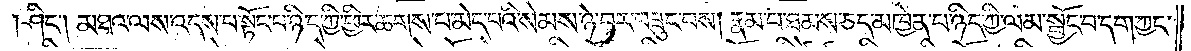ཤིང༌། མཐའ་ལས་འདས་པ་སྟོང་པ་ཉིད་ཀྱི་ཕྱིར་ཆགས་པ་མེད་པའི་སེམས་ཉེ་བར་བཟུང་བས། རྣམ་པ་ཐམས་ཅད་མཁྱེན་པ་ཉིད་ཀྱི་ལམ་སྦྱོང་བ་དག་ཀྱང་
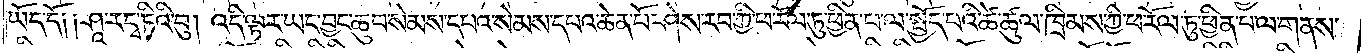ཡོད་དོ༑ ༑ཤཱ་ར་དྭ་ཏིའི་བུ། འདི་ལྟར་ཡང་བྱང་ཆུབ་སེམས་དཔའ་སེམས་དཔའ་ཆེན་པོ་ཤེས་རབ་ཀྱི་ཕ་རོལ་ཏུ་ཕྱིན་པ་ལ་སྤྱོད་པའི་ཚེ་ཚུལ་ཁྲིམས་ཀྱི་ཕ་རོལ་ཏུ་ཕྱིན་པ་ལ་གནས་
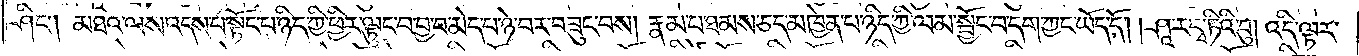ཤིང༌། མཐའ་ལས་འདས་པ་སྟོང་པ་ཉིད་ཀྱི་ཕྱིར་ལྟུང་བ་བྱ་བ་མེད་པ་ཉེ་བར་བཟུང་བས། རྣམ་པ་ཐམས་ཅད་མཁྱེན་པ་ཉིད་ཀྱི་ལམ་སྦྱོང་བ་དག་ཀྱང་ཡོད་དོ། །ཤཱ་ར་དྭ་ཏིའི་བུ། འདི་ལྟར་
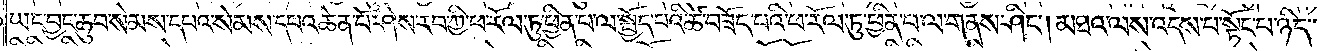ཡང་བྱང་ཆུབ་སེམས་དཔའ་སེམས་དཔའ་ཆེན་པོ་ཤེས་རབ་ཀྱི་ཕ་རོལ་ཏུ་ཕྱིན་པ་ལ་སྤྱོད་པའི་ཚེ་བཟོད་པའི་ཕ་རོལ་ཏུ་ཕྱིན་པ་ལ་གནས་ཤིང༌། མཐའ་ལས་འདས་པ་སྟོང་པ་ཉིད་
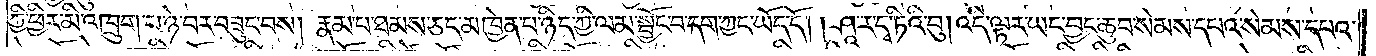ཀྱི་ཕྱིར་མི་འཁྲུག་པ་ཉེ་བར་བཟུང་བས། རྣམ་པ་ཐམས་ཅད་མཁྱེན་པ་ཉིད་ཀྱི་ལམ་སྦྱོང་བ་དག་ཀྱང་ཡོད་དོ། །ཤཱ་ར་དྭ་ཏིའི་བུ། འདི་ལྟར་ཡང་བྱང་ཆུབ་སེམས་དཔའ་སེམས་དཔའ་
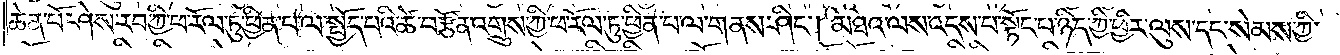ཆེན་པོ་ཤེས་རབ་ཀྱི་ཕ་རོལ་ཏུ་ཕྱིན་པ་ལ་སྤྱོད་པའི་ཚེ་བརྩོན་འགྲུས་ཀྱི་ཕ་རོལ་ཏུ་ཕྱིན་པ་ལ་གནས་ཤིང༌། མཐའ་ལས་འདས་པ་སྟོང་པ་ཉིད་ཀྱི་ཕྱིར་ལུས་དང་སེམས་ཀྱི་
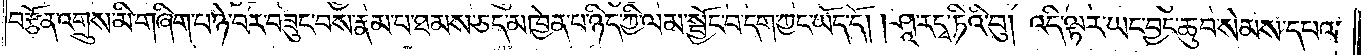བརྩོན་འགྲུས་མི་གཞིག་པ་ཉེ་བར་བཟུང་བས་རྣམ་པ་ཐམས་ཅད་མཁྱེན་པ་ཉིད་ཀྱི་ལམ་སྦྱོང་བ་དག་ཀྱང་ཡོད་དོ། །ཤཱ་ར་དྭ་ཏིའི་བུ། འདི་ལྟར་ཡང་བྱང་ཆུབ་སེམས་དཔའ་
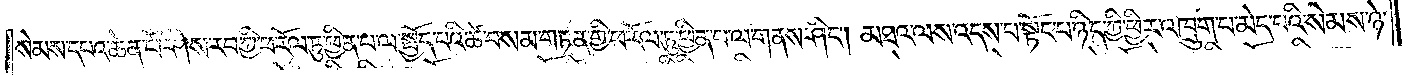སེམས་དཔའ་ཆེན་པོ་ཤེས་རབ་ཀྱི་ཕ་རོལ་ཏུ་ཕྱིན་པ་ལ་སྤྱོད་པའི་ཚེ་བསམ་གཏན་གྱི་ཕ་རོལ་ཏུ་ཕྱིན་པ་ལ་གནས་ཤིང༌། མཐའ་ལས་འདས་པ་སྟོང་པ་ཉིད་ཀྱི་ཕྱིར་འཁྲུག་པ་མེད་པའི་སེམས་ཉེ་
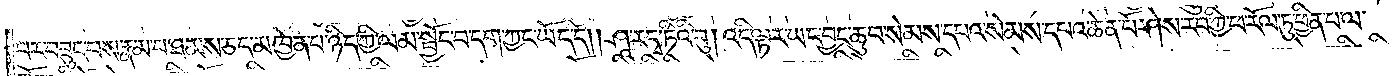བར་བཟུང་བས་རྣམ་པ་ཐམས་ཅད་མཁྱེན་པ་ཉིད་ཀྱི་ལམ་སྦྱོང་བདག་ཀྱང་ཡོད་དོ། །ཤཱ་ར་དྭ་ཏིའི་བུ། འདི་ལྟར་ཡང་བྱང་ཆུབ་སེམས་དཔའ་སེམས་དཔའ་ཆེན་པོ་ཤེས་རབ་ཀྱི་ཕ་རོལ་ཏུ་ཕྱིན་པ་ལ་
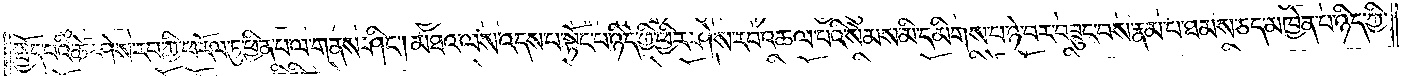སྤྱོད་པའི་ཚེ་ཤེས་རབ་ཀྱི་ཕ་རོལ་ཏུ་ཕྱིན་པ་ལ་གནས་ཤིང༌། མཐའ་ལས་འདས་པ་སྟོང་པ་ཉིད་ཀྱི་ཕྱིར་ཤེས་རབ་འཆལ་བའི་སེམས་མི་དམིགས་པ་ཉེ་བར་བཟུང་བས་རྣམ་པ་ཐམས་ཅད་མཁྱེན་པ་ཉིད་ཀྱི་
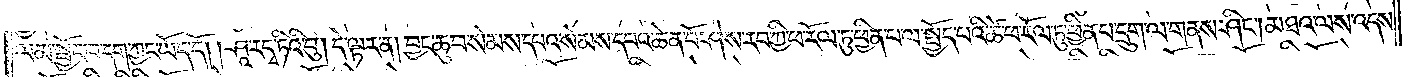ལམ་སྦྱོང་བདག་ཀྱང་ཡོད་དོ། །ཤཱ་ར་དྭ་ཏིའི་བུ། དེ་ལྟར་ན། བྱང་ཆུབ་སེམས་དཔའ་སེམས་དཔའ་ཆེན་པོ་ཤེས་རབ་ཀྱི་ཕ་རོལ་ཏུ་ཕྱིན་པ་ལ་སྤྱོད་པའི་ཚེ་ཕ་རོལ་ཏུ་ཕྱིན་པ་དྲུག་ལ་གནས་ཤིང༌། མཐའ་ལས་འདས་
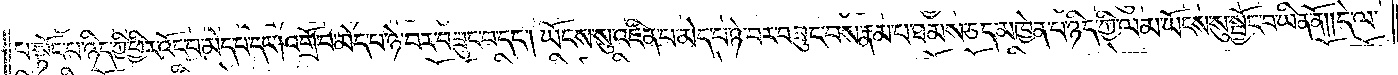པ་སྟོང་པ་ཉིད་ཀྱི་ཕྱིར་འོང་བ་མེད་པ་དང༌། འགྲོ་བ་མེད་པ་ཉེ་བར་བཟུང་བ་དང༌། ཡོངས་སུ་འཛིན་པ་མེད་པ་ཉེ་བར་བཟུང་བས་རྣམ་པ་ཐམས་ཅད་མཁྱེན་པ་ཉིད་ཀྱི་ལམ་ཡོངས་སུ་སྦྱོང་བ་ཡིན་ནོ། །དེ་ལ་
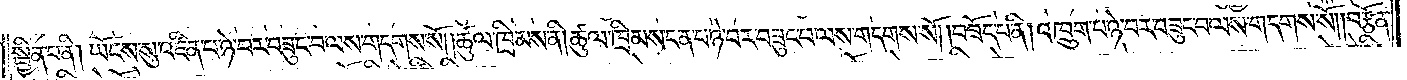སྦྱིན་པ་ནི། ཡོངས་སུ་འཛིན་པ་ཉེ་བར་བཟུང་བ་ལས་གདགས་སོ། །ཚུལ་ཁྲིམས་ནི། ཚུལ་ཁྲིམས་ངན་པ་ཉེ་བར་བཟུང་བ་ལས་གདགས་སོ། །བཟོད་པ་ནི། འཁྲུག་པ་ཉེ་བར་བཟུང་བ་ལས་གདགས་སོ། །བརྩོན་
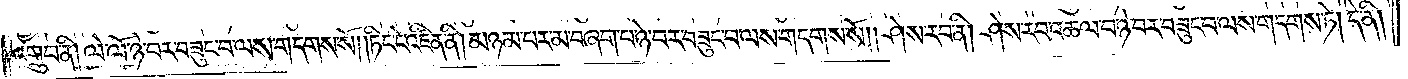འགྲུབ་ནི། ལེ་ལོ་ཉེ་བར་བཟུང་བ་ལས་གདགས་སོ། །ཏིང་ངེ་འཛིན་ནི། མཉམ་པར་མ་བཞག་པ་ཉེ་བར་བཟུང་བ་ལས་གདགས་སོ༎ ཤེས་རབ་ནི། ཤེས་རབ་འཆལ་བ་ཉེ་བར་བཟུང་བ་ལས་གདགས་ཏེ། དེ་ནི།
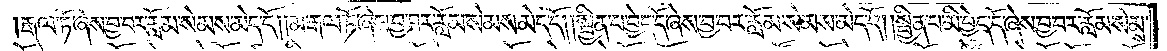རྒལ་ཏོ་ཞེས་བྱ་བར་རློམ་སེམས་མེད་དོ། །མ་རྒལ་ཏོ་ཞེས་བྱ་བར་རློམ་སེམས་མེད་དོ། །སྦྱིན་པ་བྱེད་དོ་ཞེས་བྱ་བར་རློམ་སེམས་མེད་དོ། །སྦྱིན་པ་མི་བྱེད་དོ་ཞེས་བྱ་བར་རློམ་སེམས་
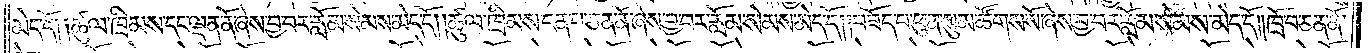མེད་དོ༑ ༑ཚུལ་ཁྲིམས་དང་ལྡན་ནོ་ཞེས་བྱ་བར་རློམ་སེམས་མེད་དོ། །ཚུལ་ཁྲིམས་ངན་པ་ཅན་ནོ་ཞེས་བྱ་བར་རློམ་སེམས་མེད་དོ། །བཟོད་པ་ཕུན་སུམ་ཚོགས་སོ་ཞེས་བྱ་བར་རློམ་སེམས་མེད་དོ། །ཁྲོ་བ་ཅན་ནོ་
